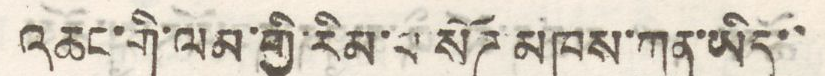འཆང་གི་ལམ་གྱི་རིམ་པ སོཌ མཁས་ཀུན་ཡིད་་
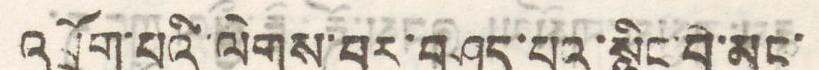འཕྲོག་པའི་ལེགས་པར་བཤད་པའ་སྙིང་བེ་མང་
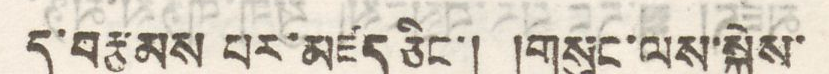དུ་བརྩམས པར་མཛད ཅིང་། །གསུང་ལས་སྐྱེས་
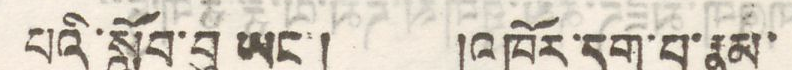པའི་སློབ་བུ ཡང་། །འཁོར་དག་པ་རྣམ་
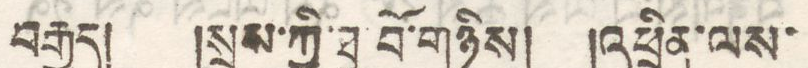བརྒྱད། །སྲས་ཀྱི་ཐུ་བོ་གཉིས། །འཕྲིན་ལས་
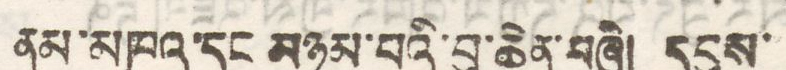ནམ་མཁའ་དང མཉམ་པའི་བུ་ཆེན་བཞི། དངུལ་
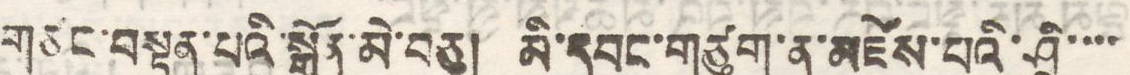གཙང་བསྟན་པའི་སྒྲོན་མེ་བཅུ། མི་དབང་གཙུག་ན་མཛེས་པའི་ཤྲི་་་་
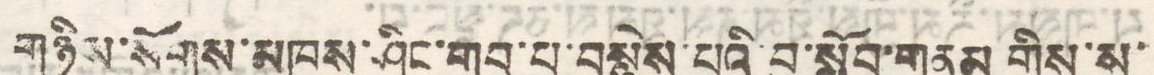གཉིས་སོགས་མཁས་ཤིང་གྲུབ་པ་བསྙེས་པའི་བུ་སློབ་གནམ་གྱིས་ས་
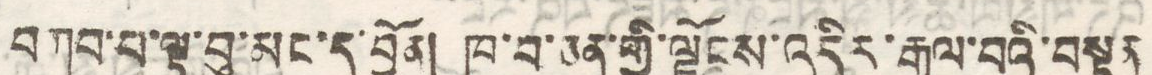བཀབ་པ་ལྟ་བུ་མང་དུ་བྱོན། ཁ་བ་ཅན་གྱི་ལྗོངས་འདིར་རྒྱལ་བའི་བསྟན
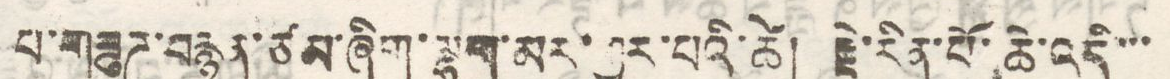པ་གཟུཌ་བརྙན་ཙམ་ཞིག་ལྷག་མར་གྱུར་པའི་ཚེ། རྗེ་རིན་པོ་ཆེ་འདི་་་
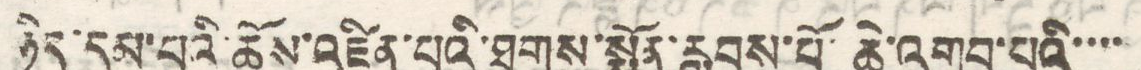ཉིད་དམ་པའི་ཆོས་འཛིན་པའི་ཐུགས་སྨོན་རླབས་པོ་ཆེ་འགྲུབ་པའི་་་་
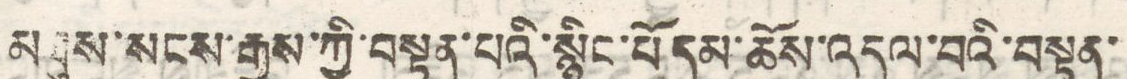མཐུས་སངས་རྒྱས་ཀྱི་བསྟན་པའི་སྙིང་པོ དམ་ཆོས་འདུལ་བའི་བསྟན་
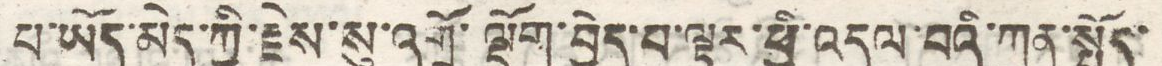པ་ཡོད་མེད་ཀྱི་རྗེས་སུ་འགྲོ་ལྡོག་བྱེད་པ་ལྟར་ཕྱི་འདུལ་བའི་ཀུན་སྤྱོད་
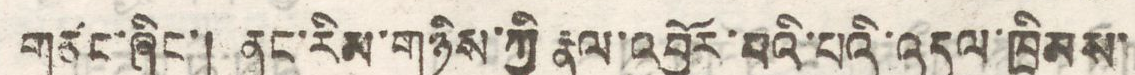གཙང་ཞིང་། ནང་རིམ་གཉིས་ཀྱི རྣལ་འབྱོར་བའི་པའི་འདུལ་ཁྲིམས་
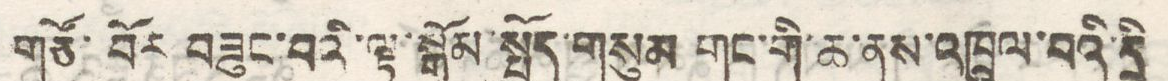གཙོ་བོར བཟུང་བའི་ལྟ་སྒོམ་སྤྱོད་གསུམ གང་གི་ཆ་ནས་འཁྲུལ་བའི་དྲི
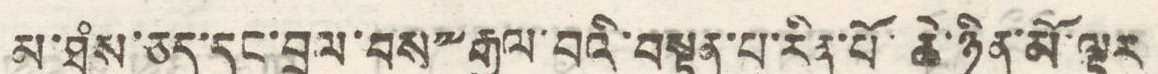མ་ཐཾས་ཅད་དང་བྲལ་བས་༸རྒྱལ་བའི་བསྟན་པ་རིན་པོ་ཆེ་ཉིན་མོ་ལྟར
